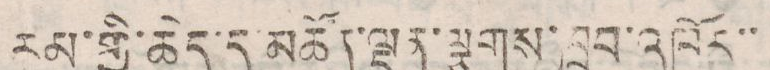རམ་གྱི་ཆེད་དུ་མཆོད་ལྡན་ལྕགས་ཁྲབ་འཁོར་་
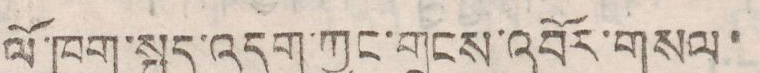ལོ་ཁག་སྤྲད་འདུག་ཀྱང་གྲངས་འབོར་གསལ་
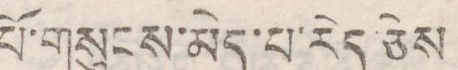པོ་གསུངས་མེད་པ་རེད་ཅེས
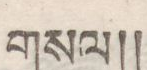གསལ།།
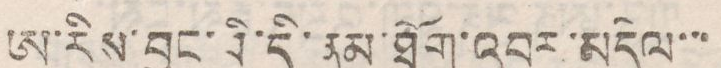ཨ་རིས་བྱང་བི་དི་ནམ་ཐོག་འབར་མདེལ་་་
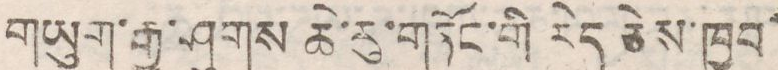གཡུག་རྒྱུ་ཤུགས ཆེ་རུ་གཏོང་གི རེད་ཅེས་ཁྱབ་
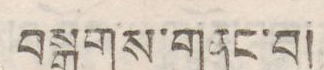བསྒྲགས་གནང་བ།
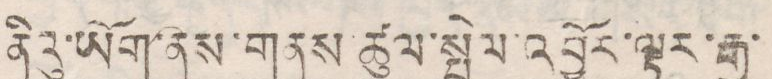ནིའུ་ཡོག་ནས་གནས་ཚུལ་སྤེལ་འབྱོར་ལྟར་རྒྱ་
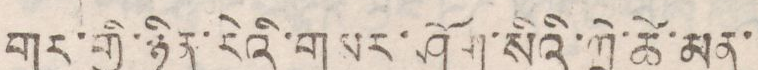གར་གྱི་ཉིན་རེའི་གསར་ཤོག་སིའི་ཀྲེ་ཚེ་མན་
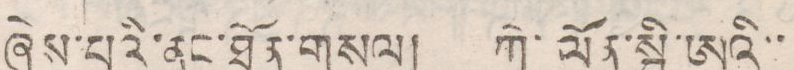ཞེས་པའི་ནང་ཐོན་གསལ། ཀི་ལོན་སྦི་ཨའི་་
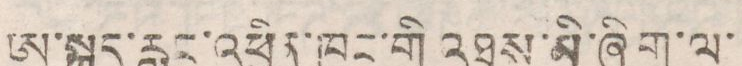ཨ་སྐད་རླུང་འཕྲིན་ཁང་གི འཐུས་མི་ཞིག་ལ་
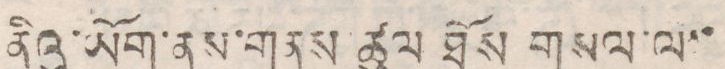ནིའུ་ཡོག་ནས་གནས་ཚུལ ཐོས གསལ་ལ་་
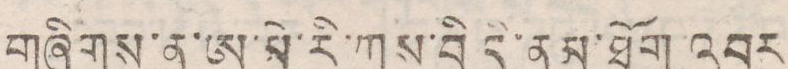གཞིགས་ན་ཨ་མེ་རི་ཀས་བི དི་ནས་ཐོག འབར
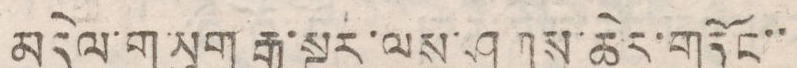མདེལ་གཡུག རྒྱུ་སྔར་ལས་ཤུགས་ཆེར་གཏོང་་
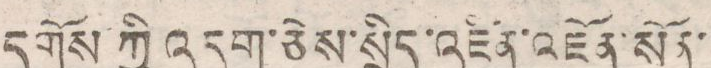དགོས ཀྱི འདུག་ཅེས་སྲིད་འཛིན་འཇོན་སོན་
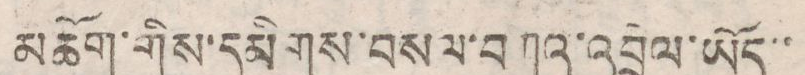མཆོག་གིས་དམིགས་བསལ་བཀའ་འབྲེལ་ཡོད་་
